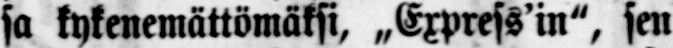sa kykenemättömäksi, „Express’in", sen
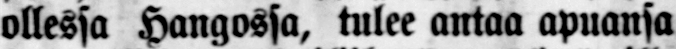ollessa Hangossa, tulee antaa apuansa
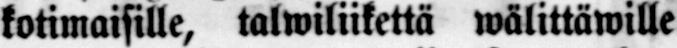kotimaisille, talwiliikettä wälittäwille
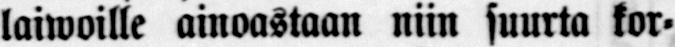laiwoille ainoastaan niin suurta kor-
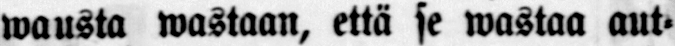wausta wastaan, että se wastaa aut-
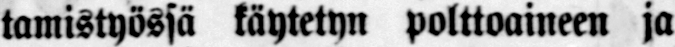tamistyössä käytetyn polttoaineen ja
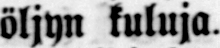öljyn kuluja.
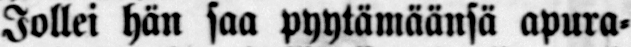Jollei hän saa pyytämäänsä apura-
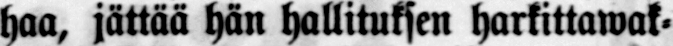haa, jättää hän hallituksen harkittawak-
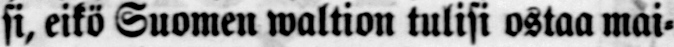si, eikö Suomen waltion tulisi ostaa mai-
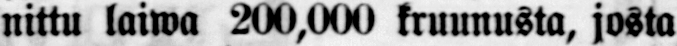nittu laiwa 200,000 kruunusta, josta
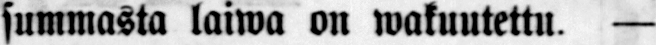summasta laiwa on wakuutettu. —
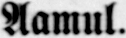Aamul.
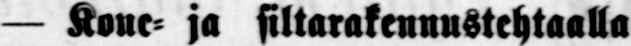— Kone- ja siltarakennustehtaalla
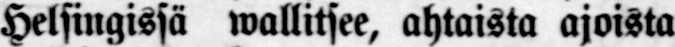Helsingissä wallitsee, ahtaista ajoista
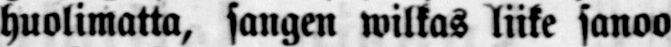huolimatta, sangen wilkas liike sanoo
